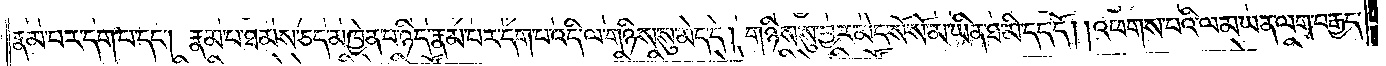རྣམ་པར་དག་པ་དང༌། རྣམ་པ་ཐམས་ཅད་མཁྱེན་པ་ཉིད་རྣམ་པར་དག་པ་འདི་ལ་གཉིས་སུ་མེད་དེ། གཉིས་སུ་བྱར་མེད་སོ་སོ་མ་ཡིན་ཐ་མི་དད་དོ། །འཕགས་པའི་ལམ་ཡན་ལག་བརྒྱད་
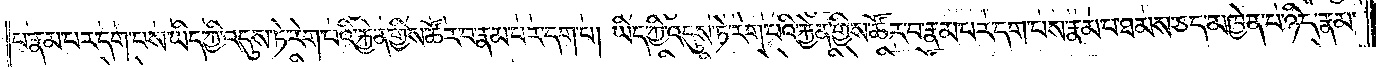པ་རྣམ་པར་དག་པས་ཡིད་ཀྱི་འདུས་ཏེ་རེག་པའི་རྐྱེན་གྱིས་ཚོར་བ་རྣམ་པར་དག་པ། ཡིད་ཀྱི་འདུས་ཏེ་རེག་པའི་རྐྱེན་གྱིས་ཚོར་བ་རྣམ་པར་དག་པས་རྣམ་པ་ཐམས་ཅད་མཁྱེན་པ་ཉིད་རྣམ་
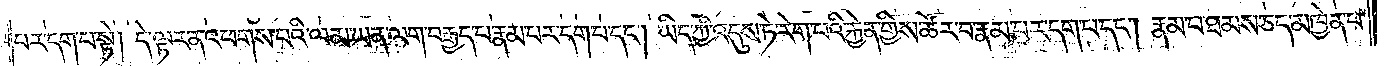པར་དག་པ་སྟེ། དེ་ལྟར་ན་འཕགས་པའི་ལམ་ཡན་ལག་བརྒྱད་པ་རྣམ་པར་དག་པ་དང༌། ཡིད་ཀྱི་འདུས་ཏེ་རེག་པའི་རྐྱེན་གྱིས་ཚོར་བ་རྣམ་པར་དག་པ་དང༌། རྣམ་པ་ཐམས་ཅད་མཁྱེན་པ་
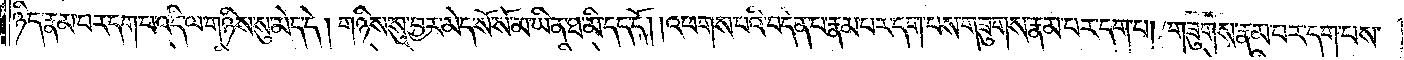ཉིད་རྣམ་པར་དག་པ་འདི་ལ་གཉིས་སུ་མེད་དེ། གཉིས་སུ་བྱར་མེད་སོ་སོ་མ་ཡིན་ཐ་མི་དད་དོ། །འཕགས་པའི་བདེན་པ་རྣམ་པར་དག་པས་གཟུགས་རྣམ་པར་དག་པ། གཟུགས་རྣམ་པར་དག་པས་
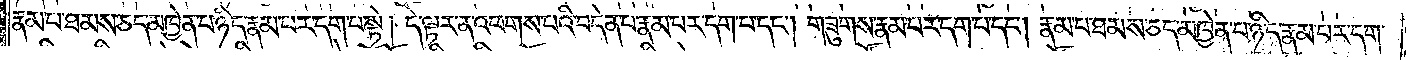རྣམ་པ་ཐམས་ཅད་མཁྱེན་པ་ཉིད་རྣམ་པར་དག་པ་སྟེ། དེ་ལྟར་ན་འཕགས་པའི་བདེན་པ་རྣམ་པར་དག་པ་དང༌། གཟུགས་རྣམ་པར་དག་པ་དང༌། རྣམ་པ་ཐམས་ཅད་མཁྱེན་པ་ཉིད་རྣམ་པར་དག་
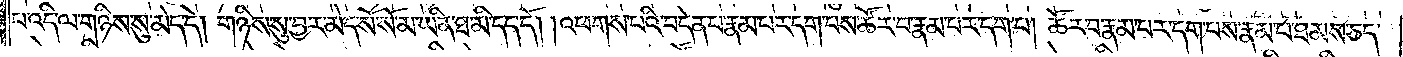པ་འདི་ལ་གཉིས་སུ་མེད་དེ། གཉིས་སུ་བྱར་མེད་སོ་སོ་མ་ཡིན་ཐ་མི་དད་དོ། །འཕགས་པའི་བདེན་པ་རྣམ་པར་དག་པས་ཚོར་བ་རྣམ་པར་དག་པ། ཚོར་བ་རྣམ་པར་དག་པས་རྣམ་པ་ཐམས་ཅད་
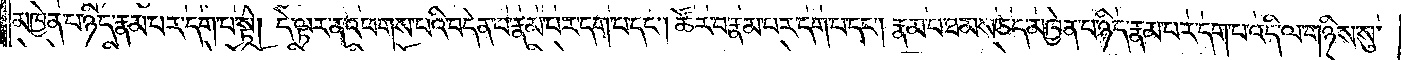མཁྱེན་པ་ཉིད་རྣམ་པར་དག་པ་སྟེ། དེ་ལྟར་ན་འཕགས་པའི་བདེན་པ་རྣམ་པར་དག་པ་དང༌། ཚོར་བ་རྣམ་པར་དག་པ་དང༌། རྣམ་པ་ཐམས་ཅད་མཁྱེན་པ་ཉིད་རྣམ་པར་དག་པ་འདི་ལ་གཉིས་སུ་
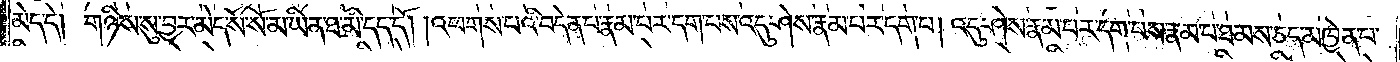མེད་དེ། གཉིས་སུ་བྱར་མེད་སོ་སོ་མ་ཡིན་ཐ་མི་དད་དོ། །འཕགས་པའི་བདེན་པ་རྣམ་པར་དག་པས་འདུ་ཤེས་རྣམ་པར་དག་པ། འདུ་ཤེས་རྣམ་པར་དག་པས་རྣམ་པ་ཐམས་ཅད་མཁྱེན་པ་
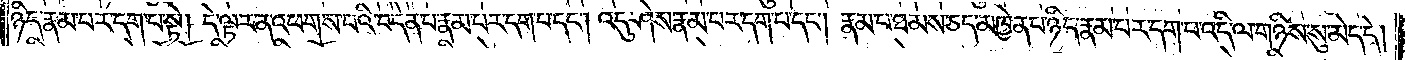ཉིད་རྣམ་པར་དག་པ་སྟེ། དེ་ལྟར་ན་འཕགས་པའི་བདེན་པ་རྣམ་པར་དག་པ་དང༌། འདུ་ཤེས་རྣམ་པར་དག་པ་དང༌། རྣམ་པ་ཐམས་ཅད་མཁྱེན་པ་ཉིད་རྣམ་པར་དག་པ་འདི་ལ་གཉིས་སུ་མེད་དེ།
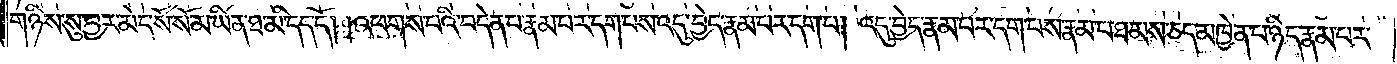གཉིས་སུ་བྱར་མེད་སོ་སོ་མ་ཡིན་ཐ་མི་དད་དོ། །འཕགས་པའི་བདེན་པ་རྣམ་པར་དག་པས་འདུ་བྱེད་རྣམ་པར་དག་པ། འདུ་བྱེད་རྣམ་པར་དག་པས་རྣམ་པ་ཐམས་ཅད་མཁྱེན་པ་ཉིད་རྣམ་པར་
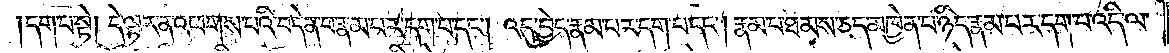དག་པ་སྟེ། དེ་ལྟར་ན་འཕགས་པའི་བདེན་པ་རྣམ་པར་དག་པ་དང༌། འདུ་བྱེད་རྣམ་པར་དག་པ་དང༌། རྣམ་པ་ཐམས་ཅད་མཁྱེན་པ་ཉིད་རྣམ་པར་དག་པ་འདི་ལ་
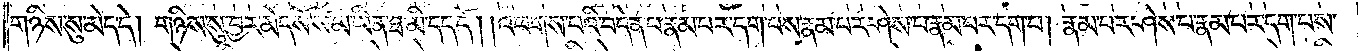གཉིས་སུ་མེད་དེ། གཉིས་སུ་བྱར་མེད་སོ་སོ་མ་ཡིན་ཐ་མི་དད་དོ། །འཕགས་པའི་བདེན་པ་རྣམ་པར་དག་པས་རྣམ་པར་ཤེས་པ་རྣམ་པར་དག་པ། རྣམ་པར་ཤེས་པ་རྣམ་པར་དག་པས་
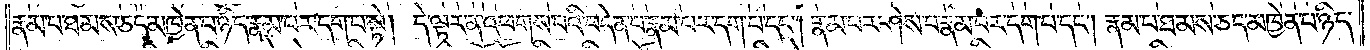རྣམ་པ་ཐམས་ཅད་མཁྱེན་པ་ཉིད་རྣམ་པར་དག་པ་སྟེ། དེ་ལྟར་ན་འཕགས་པའི་བདེན་པ་རྣམ་པར་དག་པ་དང༌། རྣམ་པར་ཤེས་པ་རྣམ་པར་དག་པ་དང༌། རྣམ་པ་ཐམས་ཅད་མཁྱེན་པ་ཉིད་
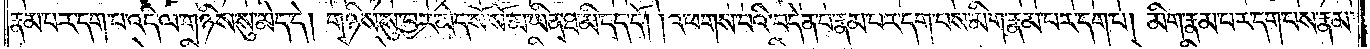རྣམ་པར་དག་པ་འདི་ལ་གཉིས་སུ་མེད་དེ། གཉིས་སུ་བྱར་མེད་སོ་སོ་མ་ཡིན་ཐ་མི་དད་དོ། །འཕགས་པའི་བདེན་པ་རྣམ་པར་དག་པས་མིག་རྣམ་པར་དག་པ། མིག་རྣམ་པར་དག་པས་རྣམ་
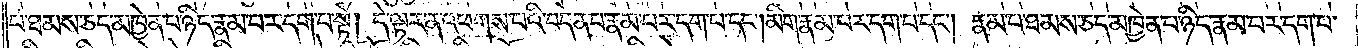པ་ཐམས་ཅད་མཁྱེན་པ་ཉིད་རྣམ་པར་དག་པ་སྟེ། དེ་ལྟར་ན་འཕགས་པའི་བདེན་པ་རྣམ་པར་དག་པ་དང༌། མིག་རྣམ་པར་དག་པ་དང༌། རྣམ་པ་ཐམས་ཅད་མཁྱེན་པ་ཉིད་རྣམ་པར་དག་པ་
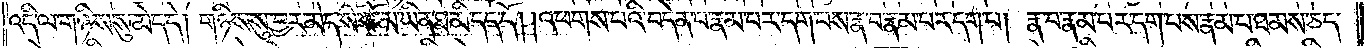འདི་ལ་གཉིས་སུ་མེད་དེ། གཉིས་སུ་བྱར་མེད་སོ་སོ་མ་ཡིན་ཐ་མི་དད་དོ། །འཕགས་པའི་བདེན་པ་རྣམ་པར་དག་པས་རྣ་བ་རྣམ་པར་དག་པ། རྣ་བ་རྣམ་པར་དག་པས་རྣམ་པ་ཐམས་ཅད་
